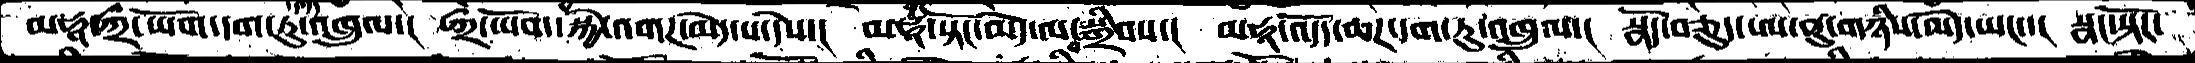མཧཱ་ཀྲྀ་ཡོག་དག་ཏུ་འཁྲུལ་།  ཀྲྀ་ཡོག་སྐྱེ་འགཌ་མེད་པ་དེས་།  མཧཱ་ནང་སྟོང་མེད་ལ་བསྒྲིབས་།  མཧཱ་འདོད་ཆཌ་དག་ཏུ་འཁྲུལ་།  སྣོད་བཅུད་ཨ་ནུ་གཉིས་མེད་ཡང་་།  སྣང་སྟོང་
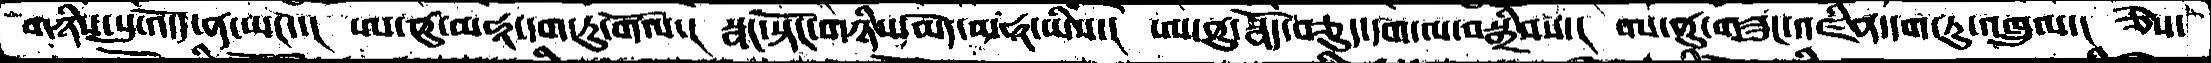གཉིས་སུ་འདོད་ན་ཡང་་།  ཨ་ནུ་མཧཱ་དག་ཏུ་གོལ་།  སྣང་སྟོང་གཉིས་མེད་མཧཱ་ཡིས་།  ཨ་ནུ་སྣོད་བཅུད་དག་ལ་བསྒྲིབས་།  ཨ་ནུ་གཟུང་འཛིན་དག་ཏུ་འཁྲུལ་།  ཅེས་
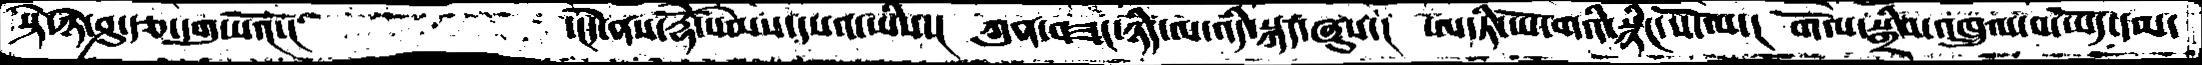སྟེ་ཉེ་ཤུ་རྩ་དགུ་པའོ་།     ་།དེ་ནས་རྡོེ་སེམས་དཔའ་ཡིས་།  ཀུན་བཟང་ཉིད་ལ་འདི་སྐད་ཞུས་།  ཨ་ཏི་ཡོ་གའི་སྙིང་པོ་ལ་།  གོལ་སྒྲིབ་འཁྲུལ་པ་ཡོད་དམ་
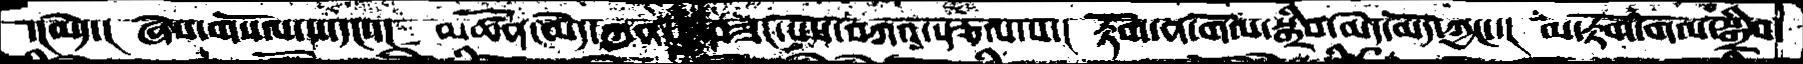་།མེད་།  ཞེས་གསོལ་པ་དང་་།  མཚོན་མེད་ཀུན་དུ་བཟང་པོས་བཀའ་སྩལ་པ་།  རྟོག་ན་གོལ་སྒྲིབ་མེད་མོད་ཀྱང་་།  མ་རྟོག་གོལ་སྒྲིབ་
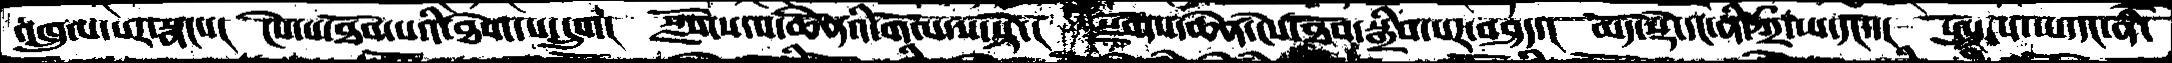འཁྲུལ་པར་སྣང་་།  ངེས་པ་ཐོབ་པའི་ཐེག་པ་དྲུག།  སྫོགས་པ་ཆཻོནའི་གོལ་ས་སྟེ་།  སྫོགས་ཆེན་ངེས་ཐོབ་སྒྲིབ་པར་བཤད་།  མདོ་སྡེ་དང་ནི་ཀྲི་ཡ་དངོས་།  ཨུ་ས་ཡ་དང་ནི་
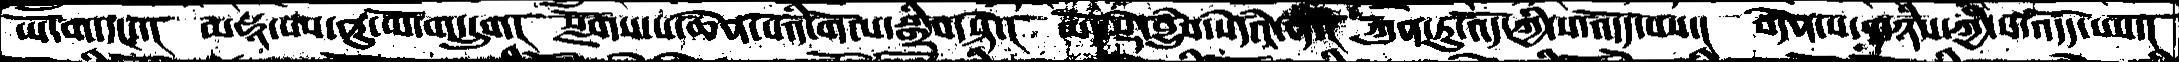ཡོ་ག་དང་་།  མ་ཧཱ་ཨ་ནུ་ཡོ་ག་དྲུག།  སྫོགས་པ་ཆེན་པོའི་གོལ་སྒྲིབ་སྟེ་།  མདོ་སྡེ་བྱུཾབ་སེཾདའ་ནི་།  ཀུན་ཏུ་འོད་ཀྱི་ས་འདོད་པས་།  བདེན་པ་གཉིས་ཀྱི་ས་འདོད་པས་།
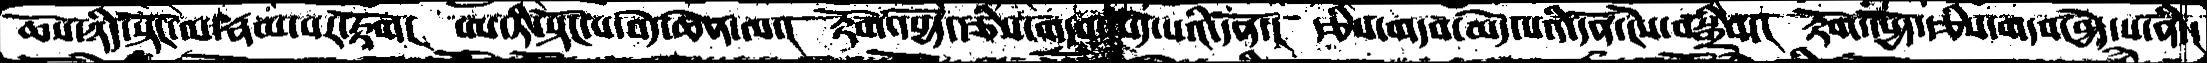ཆོས་ཉིད་སྟོང་ལ་རྣམ་པར་རྟོག།  ཨ་ཏི་སྟོང་པ་བདེ་ཆེན་ལ་།  རྟོག་དཔྱོད་རྩིས་གདབ་མེད་པའི་དོན་།  རྩིས་གདབ་མེད་པའི་དོན་ངེས་བསྒྲིབ་།  རྟོག་དཔྱོད་རྩིས་གདབ་བྱེད་པ་ནི་།
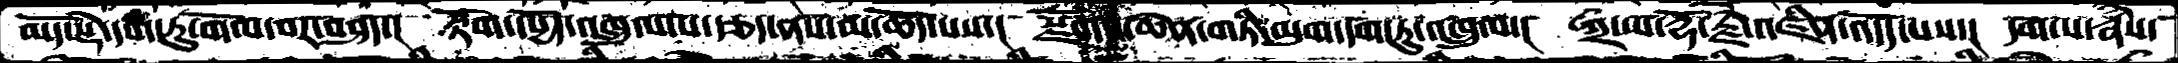མདོ་སྡེ་དག་ཏུ་གོལ་བར་བཤད་།  རྟོག་དཔྱོད་འཁྲུལ་པ་རྩད་ནས་མ་ཆོད་པས་།  སྫོགས་ཆེན་གཏི་མུག་དག་ཏུ་འཁྲུལ་།  ཀྲྀ་ཡ་རྡོ་རྗེ་འཛིན་འདོད་པས་།  དག་པ་རྣཾས་
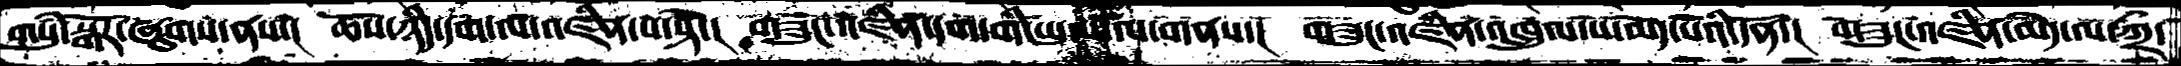གསུཾ་སྒོར་ཞུགས་ནས་།  ཆོས་ཉིད་དག་ལ་འཛིན་པ་སྟེ་།  གཟུང་འཛིན་དག་གི་ཡུལ་ལ་གནས་།  གཟུང་འཛིན་འཁྲུལ་པ་མེད་པའི་དོན་།  གཟུང་འཛིན་མེད་ལ་ཀྲྀ་
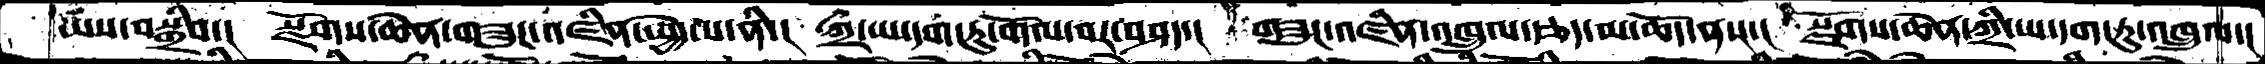ཡས་བསྒྲིབ་།  སྫོགས་ཆེན་གཟུང་འཛིན་སྤྱོད་པ་ནི་།  ཀྲྀ་ཡ་དག་ཏུ་གོལ་བར་བཤད་།  གཟུང་འཛིན་འཁྲུལ་རྩད་མ་ཆོད་ནས་།  སྫོགས་ཆེན་ཀྲྀ་ཡ་དག་ཏུ་འཁྲུལ་།
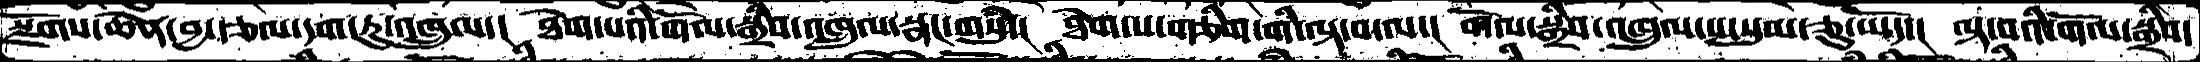སྫོགས་ཆེན་བྱ་རྩལ་དག་ཏུ་འཁྲུལ་།   ཐེག་པའི་གོལ་སྒྲིབ་འཁྲུལ་སྣང་གསུཾ་།  ཐེག་པ་གཅིག་གི་ལྟ་བ་ལ་།  གོལ་སྒྲིབ་འཁྲུལ་པ་སུམ་ཅུ་ཡོད་།  ལྟ་བའི་གོལ་སྒྲིབ་
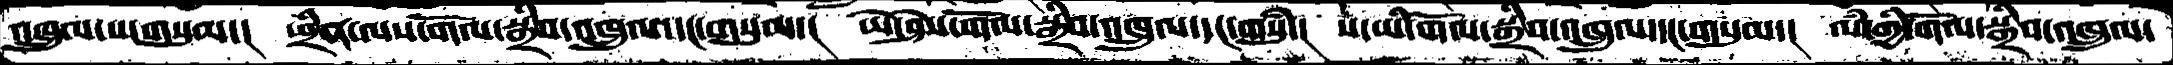འཁྲུལ་པ་གསུམ་།  ཕྲིན་ལས་གོལ་སྒྲིབ་འཁྲུལ་དང་གསུམ་།  ཡེ་ཤེས་གོལ་སྒྲིབ་འཁྲུལ་དང་གསུཾ་།  ས་ཡི་གོལ་སྒྲིབ་འཁྲུལ་དང་གསུམ་།  ལཾ་གྱི་གོལ་སྒྲིབ་འཁྲུལ་
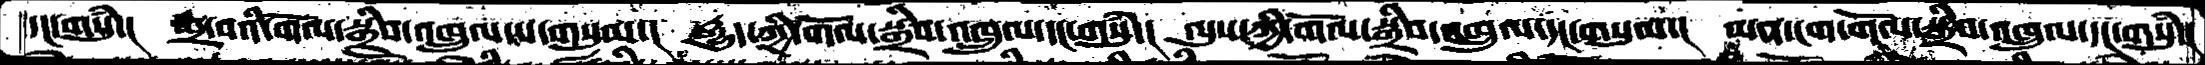དང་གསུཾ་།  སྨྲ་བའི་གོལ་སྒྲིབ་འཁྲུལ་པ་གསུམ་།  རྒྱུད་ཀྱི་གོལ་སྒྲིབ་འཁྲུལ་དང་གསུཾ་།  ལུས་ཀྱི་གོལ་སྒྲིབ་འཁྲུལ་དང་གསུམ་།  མན་ངག་གོལ་སྒྲིབ་འཁྲུལ་དང་གསུཾ་།
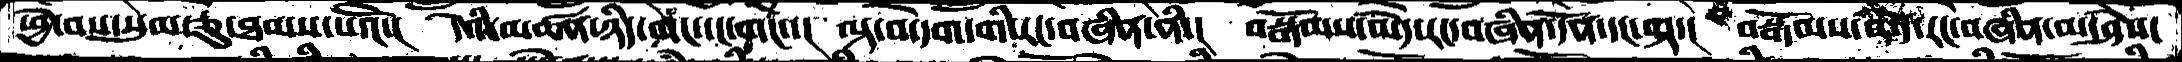ཕྱེ་བས་སུམ་ཅུ་ཐམས་པའོ་།  དེའི་མཚན་ཉིད་གང་དང་གང་་།  ལྟ་བ་དག་གི་རང་བཞིན་ནི་།  བསྒོམས་མེད་རང་བཞིན་དོན་དང་ལྟ་།  བསྒོམས་པའི་རང་བཞིན་མ་ཤེས་
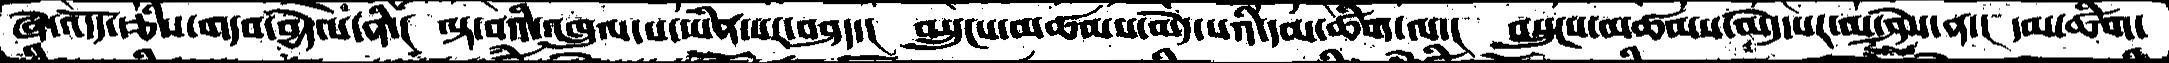ཞེ་འདོད་རྩིས་གདབ་བྱེད་པ་ནི་།  ལྟ་བའི་འཁྲུལ་པ་ཡིན་པར་བཤད་།  བསྲུངས་མཚམས་མེད་པའི་དམ་ཚིག་ལ་།  བསྲུངས་མཚམས་མེད་པར་མ་ཤེས་ན་།  དམ་ཚིག་
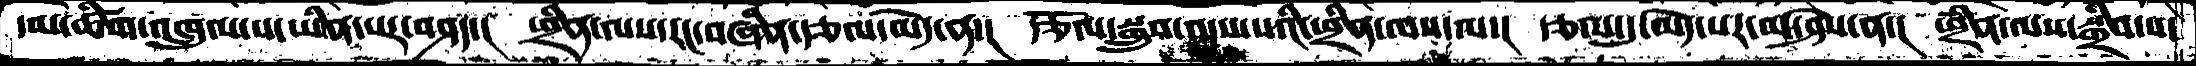དམ་ཚིག་འཁྲུལ་པ་ཡིན་པར་བཤད་།  ཕྲིན་ལས་རང་བཞིན་རྩལ་མེད་ན་།  རྩོལ་སྒྲུབ་འདུས་པའི་ཕྲིན་ལས་ལ་།  རྩལ་དུ་མེད་པར་མ་ཤེས་ན་།  ཕྲིན་ལས་སྒྲིབ་པ་
